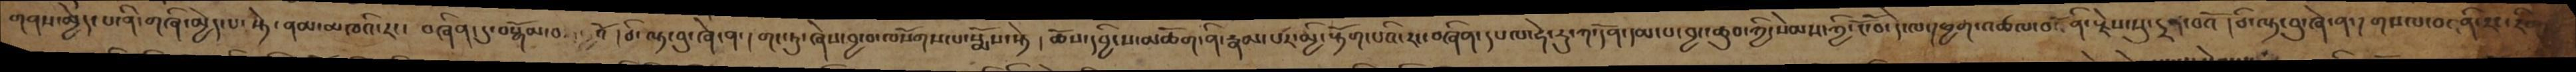གནས་མྱེད་པ་ནི་གཞི་མྱེད་པ་སྟེ་ ནམ་མཁའི་རང་ བཞིན་དུ་བསྒོམ་བ  འོ །ཅི་ལྟ་བུ་ཞེ་ན་ །གང་ཏུ་ཞེས་བྱ་བ་ལསོགས་པ་སྨོས་སྟེ །ཆོས་དབྱིངས་མཆོག་ནི་རྣམ་པར་མྱི་རྟོག་པའི་རང་བཞིན་དཔལ་ཧེ་རུ་ཀ་དོན་དམ་པ་བྱང་ཆུབ་ཀྱི་སེམས་ཀྱི་ངོ་་བོ་དེ་ལ་།ཕྱག་འཚལ་བའོ་ནི་རྗེས་སུ་དྲན་པའོ །ཅི་ལྟ་བུ་ཞེ་ན་། གསལ་བ་ནི་རང་རིག་
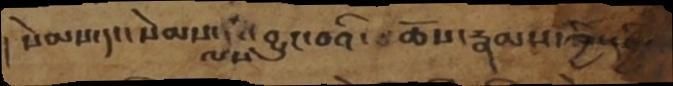།སེམས་དང་སེམས་ལས་བྱུང་བའི་ ཆོས་རྣམས་ཀྱི་དབྱེའ
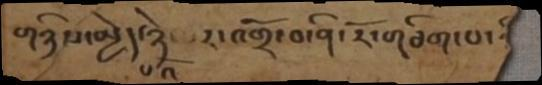གཉིས་མྱེད་པའི་ཉེ་བར་འགྲོ་བ་ནི་རོ་གཅིག་པ་
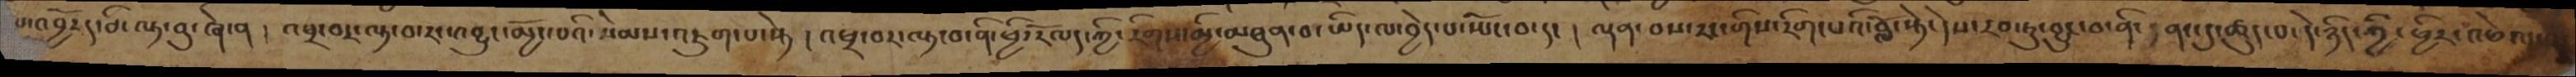པ་འབྱོརད་ཅི་ལྟ་བུ་ཞེ་ན། འཕྲ་བར་ལྟ་བ་དང་འབྱུང་མྱོང་པའི་སེམས་འཇུག་པ་སྟེ། འཕྲ་བར་ལྟ་བ་ནི་ཕྱི་རོལད་ཀྱི་རིགས་མྱི་མཐུན་པ་ཡིད་ལ་བྱེད་པ་ཡོང་བ་དང ། ལྡན་བས་རང་གིས་རིག་པའི་བློ་སྟེ་དེས་རབ་ཏུ་བྱུང་བ་ནི་ནང་དུ་ཚུད་པ་དེ་ཉིད་ཀྱི་ཕྱིར་འཕེལ་
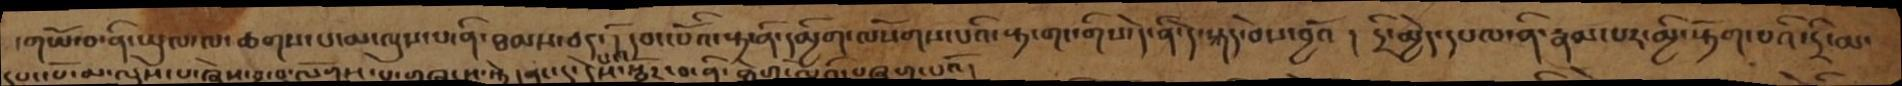་གཡོ་བ་ནི་ཡུལ་ལ་ཆགས་པ་མ་ལུས་པ་ནི་ཐམས་ཅད་དོ། དབང་པོའི་སྟ་ནི་དམྱིག་ལསོགས་པའི་སྟ་གང་གིས་དེ་ནི་དེ་སྐད་ཅེས་བྱའོ། དྲི་མྱེད་དཔལ་ནི་རྣམ་པར་མྱི་རྟོག་པའི་དྲི་མ་
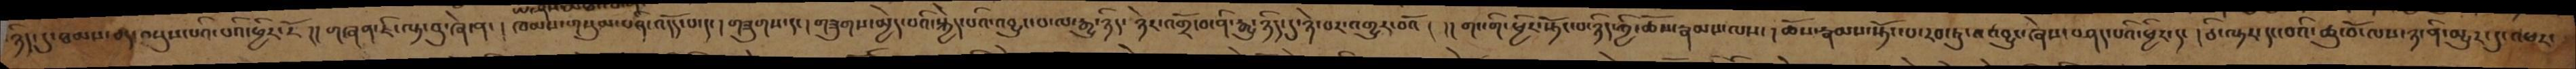ཉིད་དུ་ཐམས་ཅད་བསྡུས་པའི་པའི་ཕྱིར་རོ །། གཞན་ཇི་ལྟ་བུ་ཞེ་ན་། ཁམས་གསུམ་པའི་འདོད་པ་དང། གཟུགས་དང། གཟུགས་མྱེད་པའི་སྐྱེད་པའི་འབྱུང་བ་ལ་རྒྱུ་ཉིད་ ཉེར་འགྲོ་བ་ནི་རྒྱུ་ཉིད་དུ་ཉེ་བར་འགྱུར་བའོ། །། གང་གི་ཕྱིར་སྟོང་པ་ཉིད་ཀྱི་ཆོས་རྣམས་ལས་། ཆོས་རྣམས་སྟོང་པ་རབ་ཏུ་འབྱུང་ཞེས་བཤད་པའི་ཕྱིར་དང ། ཅི་ལྟར་དང་བའི་ཆུ་བོ་ལས་ཉ་ནི་མྱུར་དུ་འཕར་
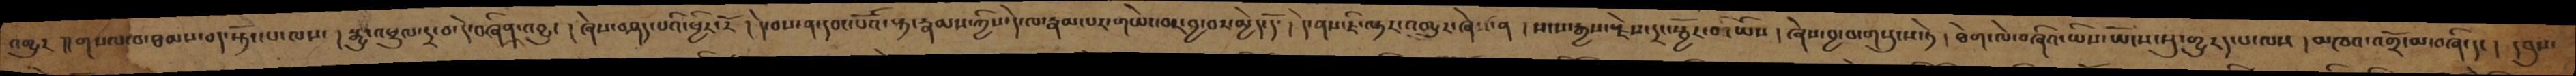འགྱུར །།གསལ་བ་ཐམས་ཅད་སྟོང་པ་ལས་། སྒྱུ་འཕྲུལ་དྲ་བ་དེ་བཞིན་འབྱུང །ཞེས་བཤད་པའི་ཕྱིར་རོ །དེ་བས་ན་དབང་པོའི་སྟ་རྣམས་ཀྱིས་དེ་ལ་རྣམ་པར་གཡེང་བར་བྱ་བར་མྱེད་དོ་ ། དེ་ནས་ཇི་ལྟར་འགྱུར་ཞེས་ན །སངས་རྒྱས་རྗེས་དྲང་སྦྱོར་བ་ཡིས །ཞེས་བྱ་བ་གསུངས་ཏེ །ཐེག་ལེ་བཞིའ་ཡིས་ཡོངས་སུ་གྱུརད་པ་ལས །མཁའ་འགྲོ་མ་བཞི་དང ། དབུས་
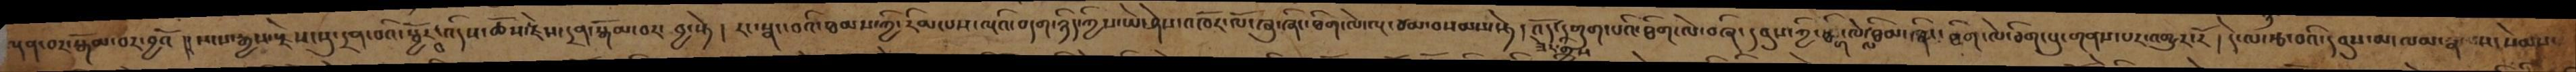ལྡན་བར་སྒོམ་བར་བྱའོ །།སངས་རྒྱས་རྗེས་སུ་དྲན་པའི་སྦྱོར་བ་འདིས་ཆོས་རྗེས་དྲན་སྒོམ་བར་བྱ་སྟེ ། རང་སྣང་བའི་ཐམས་ཀྱི་རིམ་པས་ལྔའི་བདག་ཉིད་ཀྱིས་ཡེ་ཤེས་འཁོར་ལོ་ཞུ་ཞིང་ཐིག་ལེ་ལྔ་ཙམ་བསམས་སྟེ། འོད་ཟེར་གྱིས་དགུག་པའི་ཐིག་ལེ་བཞི་དབུས་ཀྱི་ཐིག་ལེ་ལ་ཐིམ་ཞིང་ཐིག་ལེ་ཅིག་པུ་གནས་པར་འགྱུར་རོ།  དེ་ལ་རྩ་བའི་དབུས་མ་ལམ་རྣམས་སེམས་
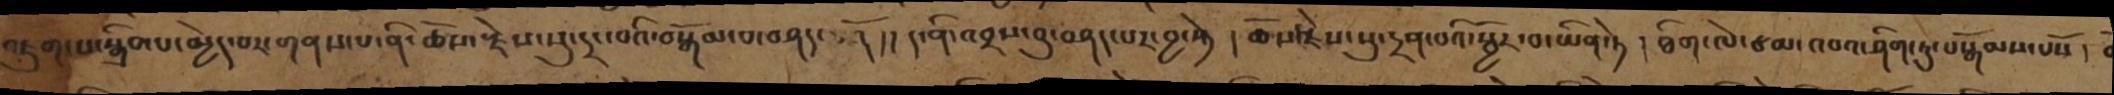འཇུག་པ་སྒྲིབ་པ་མྱེད་པར་གནས་པ་ནི་ཆོས་རྗེས་སུ་དྲང་བའི་བསྒོམ་པ་བཤད་ དོ །།ད་ནི་འབྲས་བུ་བཤད་པར་བྱ་སྟེ །ཆོས་རྗེས་སུ་དྲན་པའི་སྦྱོར་བ་ཡིན་ཏེ །ཐིག་ལེ་ཙམ་འབའ་ཤིག་ཏུ་བསྒོམ་པསོ །
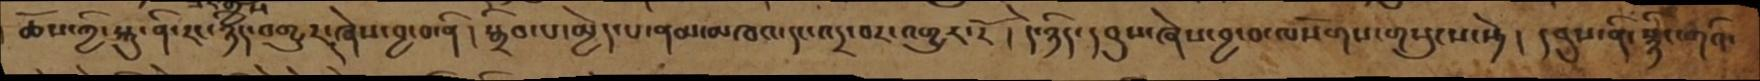ཆོས་ཀྱི་སྐུ་ནི་རང་ཉིད་འགྱུར་ཞེས་བྱ་བ་ནི། སྒྲིབ་པ་མྱེད་པ་ནམ་མཁའ་དང་འདྲ་བར་འགྱུར་རོ། དེ་ཉིད་དབུས་ཞེས་བྱ་བ་ལསོགས་གསུངས་སྟེ། དབུས་ནི་སྙིང་གའི་
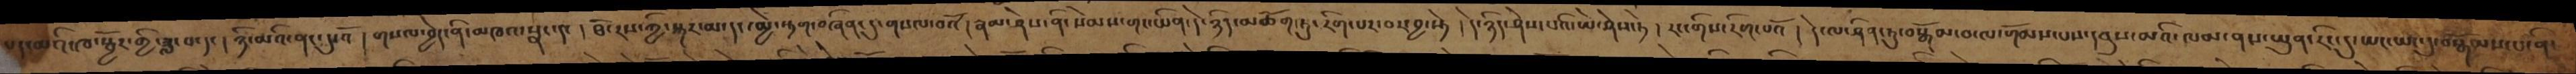པད་མའི་ཁ་སྦྱོར་གྱི་ཟླ་བ་དང།ཉི་མའི་ནང་དུ་འོ །གསལ་བྱེད་ནི་མཁའ་སྣང་དང །ཐོ་རས་ཀྱི་སྐར་མ་དང་མྱེ་སྟག་བཞིན་དུ་གསལ་བའོ།རྣམ་ཤེས་ནི་སེམས་གང་ཡིན་དེ་ཉིད་མཆོག་ཏུ་རིག་པར་བར་བྱ་སྟེ །དེ་ཉིད་ཤེས་པའི་ཡེ་ཤེས་ཏེ །རང་གིས་རིག་པའོ ། དེ་ལ་ཤིན་ཏུ་བསྒོམ་བ་ལ་གོམས་པས་དབུས་མའི་ལམ་ནས་ཡུན་རིང་དུ་ཡང་ཡང་དུ་བསྒོམས་པ་ནི
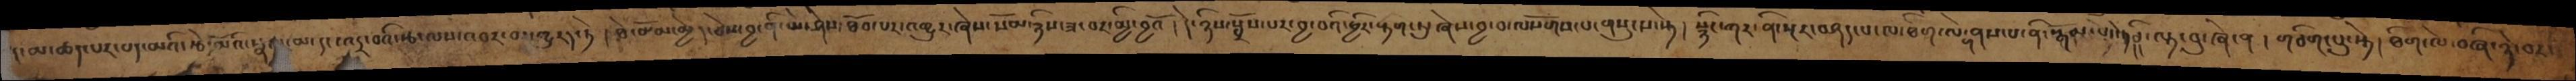ད་མ་ཆད་པར་པད་མའི་རྩེ་མོའི་སྣལ་མ་དང་འདྲ་བའི་རྩ་ལས་འབར་བར་གྱུརད་ཏེ། ཐེ་ཙོམ་མྱེད་ཅེས་བྱ་ནི་ཡེ་ཤེས་ཐོབ་པར་འགྱུར་ཞེས་སོམ་ཉིས་ཟ་བར་མྱི་བྱའོ། དེ་ཉིས་སྤྲོས་པར་བྱ་བའི་ཕྱིར་རྟག་ཏུ་ཞེས་བྱ་བ་ལསོགས་པ་གསུངས་ཏེ། སྙིང་ཀར་ནི་སྔར་བཤད་པ་ལ་ཐིག་ལེ་གནས་པ་ནི་སྒོམ་པ་དེ་ཅི་ལྟ་བུ་ཞེ་ན། གཅིག་པུ་སྟེ། ཐིག་ལེ་བཞི་ཉེ་བར་
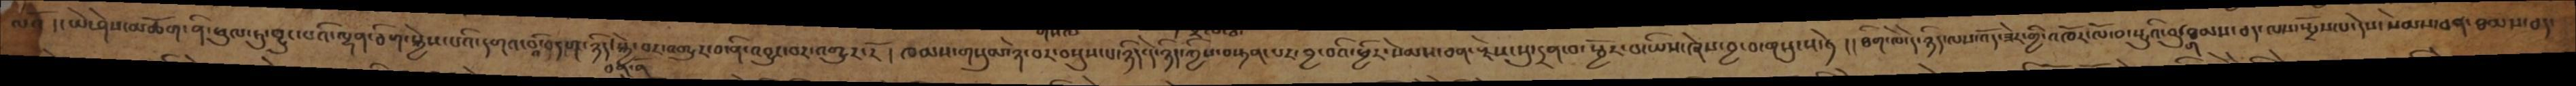ལའོ །། ཡེ་ཤེས་མཆོག་ནི་ཕུལ་ཏུ་བྱུང་པའི་ལྷན་ཅིག་སྐྱེས་པའི་དགའ་བའི་བདག་ཉིད་སྐྱེ་བར་འགྱུར་བ་ནི་འབྱུང་བར་འགྱུར་རོ ། ཁམས་གསུམ་ཉེ་བར་བསྡུས་པ་ཉིད་དེ་ཉིད་ཀྱིས་བསྟན་པར་བྱ་བའི་ཕྱིར་སེམས་ཅན་རྗེས་སུ་དྲག་བ་སྦྱོར་བ་ཡིས་ཞེས་བྱ་བ་གསུངས་ཏེ །། ཐིག་ལེ་དེ་ཉིད་ལས་འོད་ཟེར་གྱི་འཁོར་ལོ་བ་སྦུའི་བུ་ག་ཐམས་ཅད་ལས་སྤྲོས་པ་དེས་སེམས་ཅན་ཐམས་ཅད་
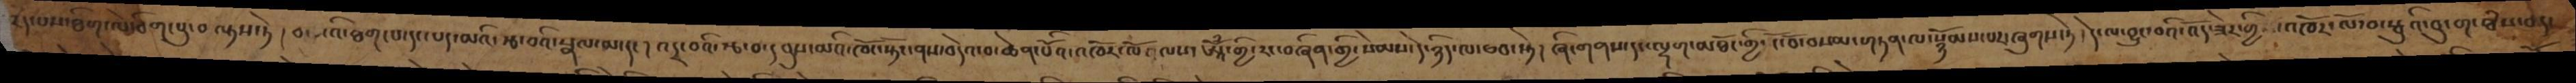རད་པས་ཐིག་ལེ་ཅིག་པུ་བལྟས་ཏེ ། བ་འི་ཐག་པ་དང་པད་མའི་རྩ་བའི་རྣལ་མ་དང།འདྲ་བའི་རྩ་བ་དང་དབུས་མའི་ཁོང་སྟོང་ནས་བདེའ་བ་ཆེན་པོའི་འཁོར་ལོ་ལས་ཨཱོྃ་གྱི་རང་བཞིན་གྱི་སེམས་དེ་ཉིད་ལ་ཕབ་སྟེ། ཞི་གནས་དང་ལྷག་མཐོང་གྱི་ངོ་བོ་བསམ་གཏན་ལ་སྙོམས་པར་ཞུགས་ཏེ།དེ་ལ་བྱུང་བའི་འོད་ཟེར་གྱི་འཁོར་ལོ་བ་སྤུའི་བུ་ག་ཐཾས་ཅད་
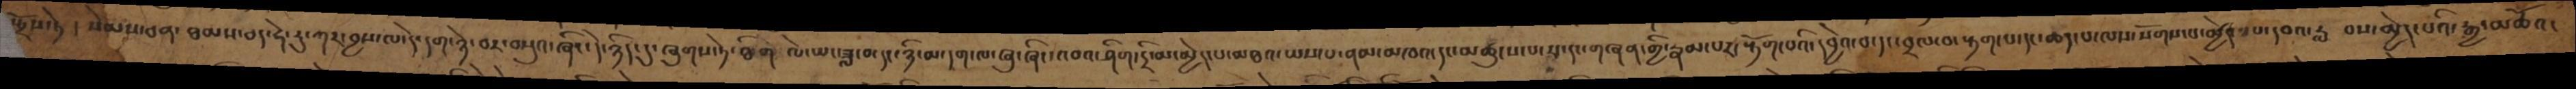སྤྲོས་ཏེ །སེམས་ཅན་ཐམས་ཅད་ཧེ་རུ་ཀར་བྱས་ལ་དེ་དག་ཉེ་བར་བསྡུའ་ཞིང་དེ་ཉིད་དུ་ཞུགས་ཏེ་ཐིག་ལེ་ཡང་ཟླ་བ་དང་ཉི་མ་དག་ལ་ཞུ་ཞིང་འབའ་ཤིག་དྲི་མ་མྱེད་པ་མཐའ་ཡས་པ་ནམ་མཁའ་དང་མཚུངས་པ་རང་དང་གཞན་གྱི་རྣམ་པར་རྟོག་པའི་དབྱེའ་བ་དང་བྲལ་བ་རྟག་པ་དང་ཆད་པ་ལས་སོགས་པ་མྱེད་པ་དབའ་རླ བས་མྱེད་པའི་རྒྱ་མཚོའ
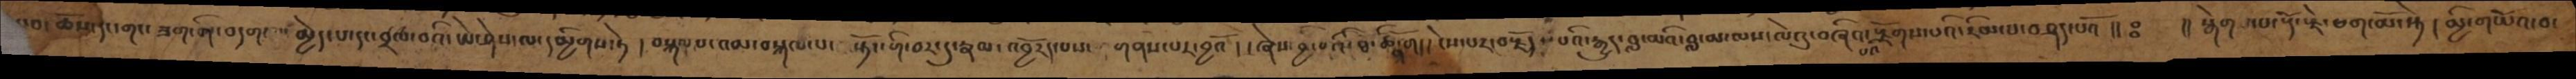བ་ཆོས་དང་གང་ཟག་གི་བདག་མྱེད་པ་དང་བྲལ་བའི་ཡེ་ཤེས་ལ་དམྱིགས་ཏེ ། བསྐལ་པ་འམ་བསྐལ་པ། སྟོང་གི་བར་དུ་རྣལ་འབྱོརད་པས་ གནས་པར་བྱའོ །། ཞེས་བྱ་བའི་ཐ་ཚིག་གོ།། ངེས་པར་བརྗོད་པའི་རྒྱུད་བླ་མའི་བླ་མ་ལས་ལེའུ་བཞིའ་པའི་རྫོགས་པའི་རིམ་པ་བཤད་པའོ །།   །། སྒེག་པ་རྡོ་རྗེ་ཕག་མོ་སྟེ། མྱི་གཡོའ་བ་
